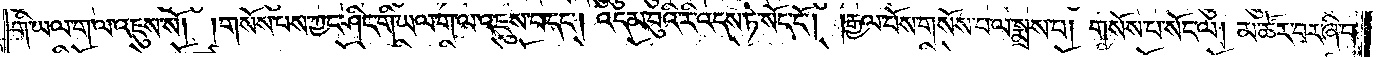གི་ཡལ་ག་ལ་འཇུས་སོ། །གསོས་པས་ཀྱང་ཤིང་གི་ཡལ་ག་ལ་འཇུས་པ་དང༌། འདམ་བུའི་རི་འདས་ཏེ་སོང་ངོ༌། །རྒྱལ་པོས་གསོས་པ་ལ་སྨྲས་པ། གསོས་པ་སོང་ལ། མ་ཚོར་བར་ཞི་བ་
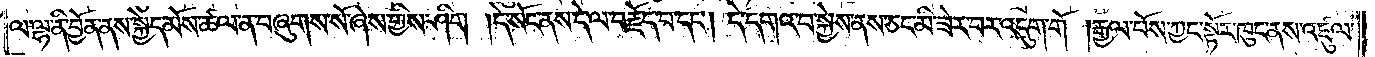ལ་ལྷ་ནི་བྱོན་ནས་སྐྱེད་མོས་ཚལ་ན་བཞུགས་སོ་ཞེས་གྱིས་ཤིག །དེ་སོང་ནས་དེ་ལ་བརྗོད་བ་དང༌། དེ་དགའ་བ་སྐྱེས་ནས་ཅང་མི་ཟེར་བར་འདུག་གོ །རྒྱལ་པོས་ཀྱང་སྟོར་ཁུང་ནས་འཛུལ་
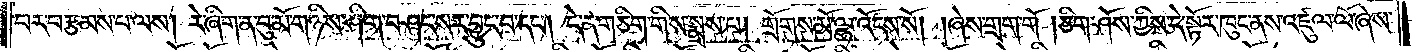བར་བརྩམས་པ་ལས། རེ་ཞིག་ན་བུ་མོ་གཉིས་ཤིག་བཤང་སར་བྱུང་བ་དང༌། དེ་ན་གཅིག་གིས་སྨྲས་པ། གྲོགས་མོ་ལྷ་འོངས་སོ། །ཞེས་གྲག་གོ །ཅིག་ཤོས་ཀྱིས་དེ་སྟོར་ཁུང་ནས་འཛུལ་ལོ་ཞེས་
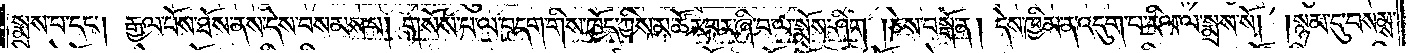སྨྲས་པ་དང༌། རྒྱལ་པོས་ཐོས་ནས་དེས་བསམས་པ། གསོས་པ་ལ་བདག་གིས་ཁྱོད་ཀྱིས་མ་ཚོར་བར་ཞི་བ་ལ་སྨྲོས་ཤིག །ཅེས་བསྒོ་ན། དེས་ཁྱིམ་ན་འདུག་པ་རིལ་ལ་སྨྲས་སོ། །སྙམ་དུ་བསམས་
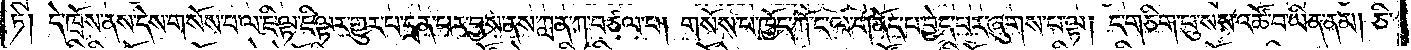ཏེ། དེ་ཁྲོས་ནས་དེས་གསོས་པ་ལ་ཇི་ལྟ་ཇི་ལྟར་གྱུར་པ་དྲན་པར་བྱས་ནས་ཀླན་ཀ་བཙལ་པ། གསོས་པ་ཁྱོད་ཀོ་ང་ལ་གནོད་པ་བྱེད་པར་ཞུགས་པ་ལྟ། ང་གཅིག་པུ་སས་འཚོ་བ་ཡིན་ནམ། ཅི་
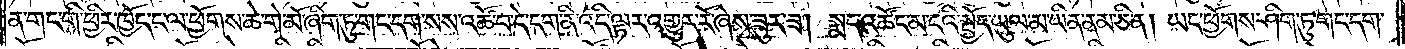ན་གང་གི་ཕྱིར་ཁྱོད་ང་ལ་ཕྱོགས་ཆེ་གེ་མོ་ཞིག་ཏུ་གང་དག་སས་འཚོ་བ་དེ་དག་ནི་འདི་ལྟར་འགྱུར་རོ་ཞེས་ཟུར་ཟ། སྨད་འཚོང་མ་ངའི་སྤྱོད་ཡུལ་མ་ཡིན་ནམ་ཅི་ན། ཡང་ཕྱོགས་ཤིག་ཏུ་གང་དག་
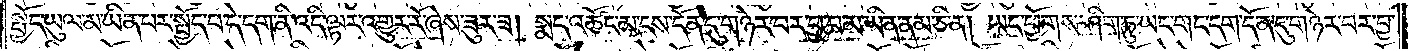སྤྱོད་ཡུལ་མ་ཡིན་པར་སྤྱོད་པ་དེ་དག་ནི་འདི་ལྟར་འགྱུར་རོ་ཞེས་ཟུར་ཟ། སྨད་འཚོང་མ་ངས་དོན་དུ་གཉེར་བར་བྱ་བ་མ་ཡིན་ནམ་ཅི་ན། ཡང་ཕྱོགས་ཤིག་ཏུ་ཡང་གང་དག་དོན་དུ་གཉེར་བར་བྱ་
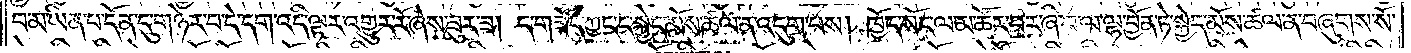བ་མ་ཡིན་པ་དོན་དུ་གཉེར་བ་དེ་དག་འདི་ལྟར་འགྱུར་རོ་ཞེས་ཟུར་ཟ། ད་གཟོད་ཀྱང་ང་སྐྱེད་མོས་ཚལ་ན་འདུག་པས། ཁྱོད་སོང་ལ་མ་ཚོར་བར་ཞི་བ་ལ་ལྷ་བྱོན་ཏེ་སྐྱེད་མོས་ཚལ་ན་བཞུགས་སོ་
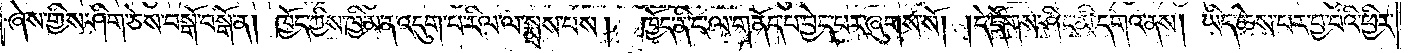ཞེས་གྱིས་ཤིག་ཅེས་བསྒོ་བསྒོ་ན། ཁྱོད་ཀྱིས་ཁྱིམ་ན་འདུག་པ་རིལ་ལ་སྨྲས་པས། ཁྱོད་ནི་ང་ལ་གནོད་པ་བྱེད་པར་ཞུགས་སོ། །དེ་དོགས་ཤིང་མི་དགའ་ནས། ཡིད་ཆེས་པར་བྱ་བའི་ཕྱིར་
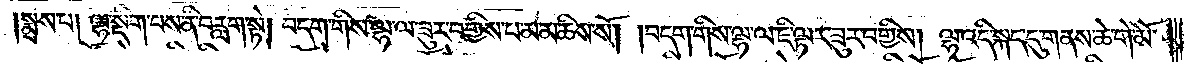སྨྲས་པ། ལྷ་སྡིག་པས་ནི་བརླག་སྟེ། བདག་གིས་ལྷ་ལ་ཟུར་བགྱིས་པ་མ་མཆིས་སོ། །བདག་གིས་ལྷ་ལ་ཇི་ལྟར་ཟུར་བགྱིས། ལྷ་འདི་སྐད་དུ་གནས་ཆེ་གེ་མོ་
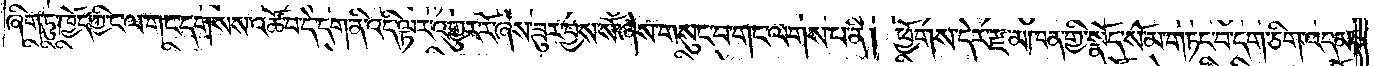ཞིག་ཏུ་ཁྱོད་ཀྱི་ང་ལ་གང་དག་སས་འཚོ་བ་དེ་དག་ནི་འདི་ལྟར་འགྱུར་རོ་ཞེས་ཟུར་བྱས་སོ་ཞེས་གསུང་བ་གང་ལགས་པ་ནི། ཕྱོགས་དེར་རྫ་མཁན་གྱི་སྣོད་སོ་མ་གཏང་བ་དག་ཅིག་འདམ་
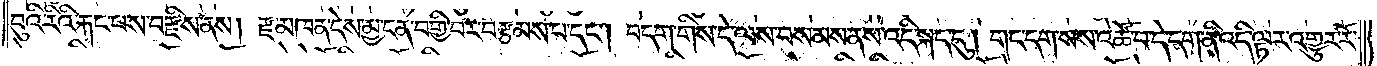བུའི་རིའི་རྐང་པས་བརྫིས་ནས། རྫ་མཁན་དེས་མྱ་ངན་བགྱི་བར་བརྩམས་པ་དང༌། བདག་གིས་དེ་ལས་བསམས་ནས་འདི་སྐད་དུ། གང་དག་སས་འཚོ་བ་དེ་དག་ནི་འདི་ལྟར་འགྱུར་རོ་
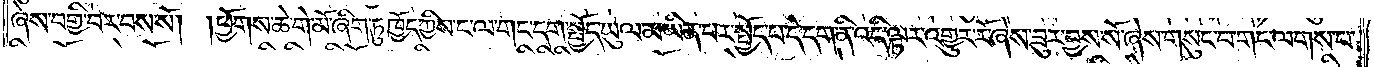ཞེས་བགྱི་བར་བས་སོ། །ཕྱོགས་ཆེ་གེ་མོ་ཞིག་ཏུ་ཁྱོད་ཀྱིས་ང་ལ་གང་དག་སྤྱོད་ཡུལ་མ་ཡིན་པར་སྤྱོད་པ་དེ་དག་ནི་འདི་ལྟར་འགྱུར་རོ་ཞེས་ཟུར་བྱས་སོ་ཞེས་གསུང་བ་གང་ལགས་པ་
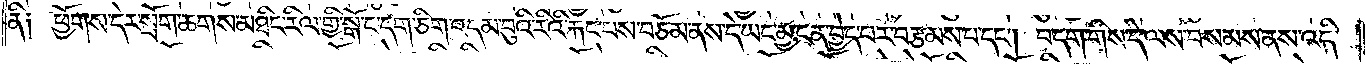ནི༑ ཕྱོགས་དེར་སྲོག་ཆགས་མཐིང་རིལ་གྱི་སྒོ་ང་དག་ཅིག་འདམ་བུའི་རིའི་རྐང་པས་བཅོམ་ནས་དེ་ཡང་མྱ་ངན་བྱེད་པར་བརྩམས་པ་དང༌། བདག་གིས་དེ་ལས་བསམས་ནས་འདི་
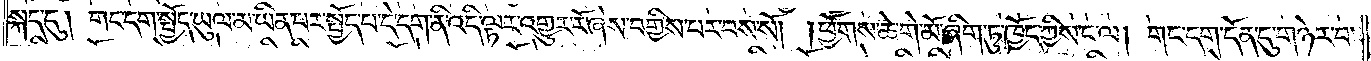སྐད་དུ། གང་དག་སྤྱོད་ཡུལ་མ་ཡིན་པར་སྤྱོད་པ་དེ་དག་ནི་འདི་ལྟར་འགྱུར་རོ་ཞེས་བགྱིས་པར་བས་སོ། །ཕྱོགས་ཆེ་གེ་མོ་ཞིག་ཏུ་ཁྱོད་ཀྱིས་ང་ལ། གང་དག་དོན་དུ་གཉེར་བ་
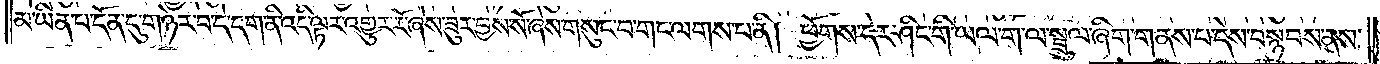མ་ཡིན་པ་དོན་དུ་གཉེར་བ་དེ་དག་ནི་འདི་ལྟར་འགྱུར་རོ་ཞེས་ཟུར་བྱས་སོ་ཞེས་གསུང་བ་གང་ལགས་པ་ནི། ཕྱོགས་དེར་ཤིང་གི་ཡལ་ག་ལ་སྦྲུལ་ཞིག་གནས་པ་དེས་བསྙབས་ནས་
